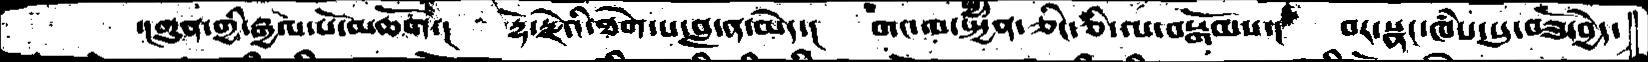་།གུན་གྱི་རྒྱལ་པོ་མཆོག་།  རྡོ་རྗེའི་ཐེག་པ་བླ་ན་མེད་།  གང་ལ་སྤྱན་ཅིང་ཅི་ལ་བསྒོམས་། བར་སྣང་ཁཾས་སུ་བཟོ་བྱེད་
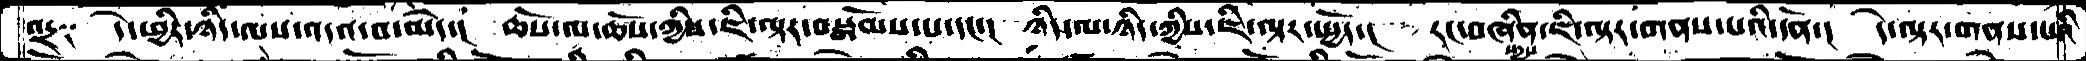འདྲ༑  དེ་ཕྱིར་ཉིད་ལས་འདའ་བ་མེད་།  ཆོས་ལ་ཆོས་ཀྱིས་ཇི་ལྟར་བསྒོམས་པ་དང་། ཉིད་ལ་ཉིད་ཀྱིས་ཇི་ལྟར་སྤྱོད་། རང་བཞིན་ཇི་ལྟར་གནས་པའི་དོན་། དེ་ལྟར་གནས་པའི་
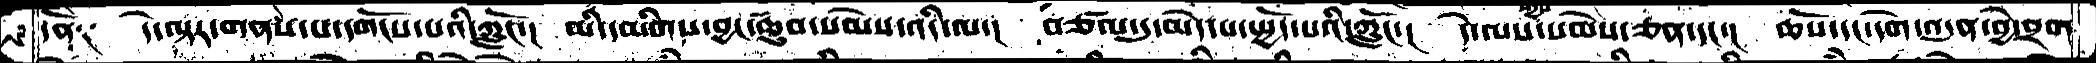དོན༑  དེ་ལྟར་གནས་པ་དགོངས་པའི་ཀློང་། མི་དམིགས་བྱང་ཆུབ་སེམས་འདི་ལ་། བཙལ་དུ་མེད་པ་སྤྱོད་པའི་ཀློང་། དེ་ལས་སདྱས་སེམས་ཅན་དང་།  ཆོས་དང་དགེ་འདུན་བྱེ་བྲག་
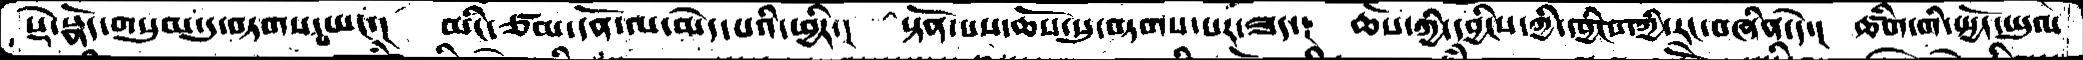སྡེ་སྣོད་གསུམ་དུ་བཏགས་པ་ཡང་།  མིང་ཙམ་དོན་ལ་མེད་པའི་ཕྱིར་། སྟོན་པས་ཆོས་སུ་བཏགས་པར་ཟད་། ཆོས་ཀྱི་དབྱིངས་ཀྱི་དབྱིངས་ཀྱི་རང་བཞིན་དེ་།  ཚིག་གི་སྤྱོད་ཡུལ
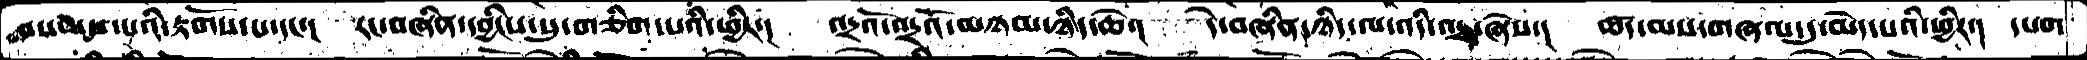བསམས་པའི་རྟོགས་པ་དང་། རང་བཞིན་དབྱིངས་སུ་གཅིག་པའི་ཕྱིར་། འདྲའོ་འདྲའོ་མཉམ་ཉིད་ཆེ་། དེ་བཞིན་ཉིད་ལ་འདི་འདྲ་ཞེས་། ཚད་མས་གཞལ་དུ་མེད་པའི་ཕྱིར་། དཔག
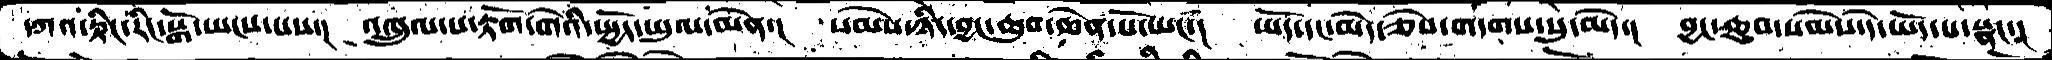དཀའ་རྟིང་རིང་སྒོ་ཡངས་པས་།  འཁྲུལ་པ་རྟོག་གེའི་སྤྱོད་ཡུལ་མེན་།  སེམས་ཉིད་བྱང་ཆུབ་ཆེན་པོ་ཡང་། ཡོད་དང་མེད་ཅེས་གདགས་སུ་མེད་།  བྱང་ཆུབ་སེམས་དེ་ཡོད་པ་སྣང་།
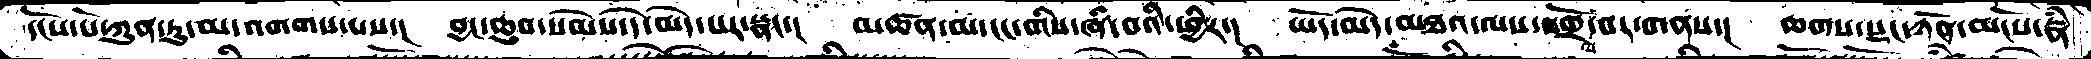དངོས་པོ་ཀུན་ཏུ་མ་འགགས་པས་།  བྱང་ཆུབ་སེམས་དེ་མེད་པར་སྣང་། མཚན་མ་ངང་གིས་ཞི་བའི་ཕྱིར་།  ཡོད་མེད་མཐའ་ལས་འགྲོལ་བར་གནས་།  ཆགས་སྡང་ཉོན་མོངས་རྣཾ
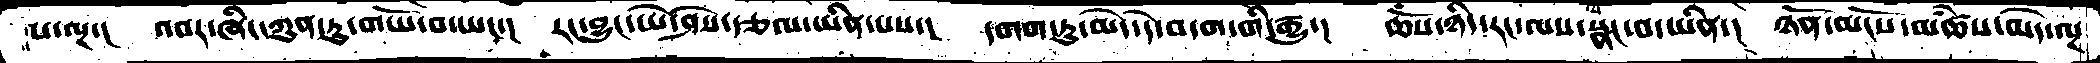པ་ལྔ་།  འབར་ཞིང་ཀུན་ཏུ་གཡོ་བ་ཡང་།  རང་བྱུང་ཡེ་ཤེས་རྩལ་ཡིན་པས་། དགག་ཏུ་མེད་དེ་བདག་གི་རྒྱུ་། ཆོས་ཉིད་རང་ལས་སྣང་བ་ཡིན་།  ཉོན་མོངས་མཚཾས་མེད་ལྔ
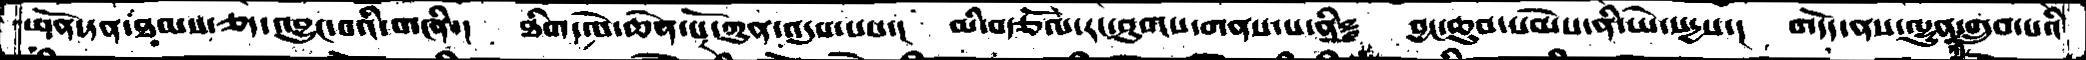ཡོན་ཏན་ཐམས་ཅད་འབྱུང་བའི་གཞི་།  ཐིག་ལེ་ཆེན་པོར་ཀུན་འདུས་པས་།  མི་བརྩོལ་རང་ཤུགས་གནས་པ་ནི༔  བྱང་ཆུབ་སེམས་ནི་ཡེ་སདྱས་།  གདོད་ནས་ལྷུན་ཀྱི་གྲུབ་པའི
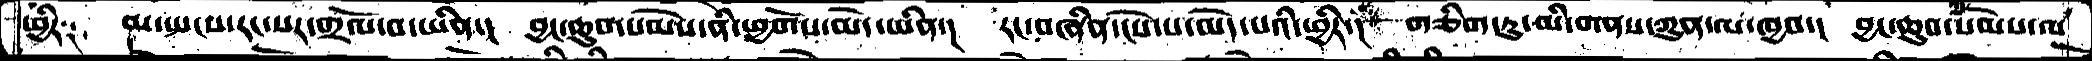ཕྱིར༑  མ་སྤངས་རང་སར་གྲོལ་བ་ཡིན་།  བྱང་ཆུབ་སེམས་ནི་ཕྱོགས་མེེད་ཡིན་།  རང་བཞིན་ངེས་པ་མེད་པའི་ཕྱིར་།  གཅིག་ཏུ་མི་གནས་ཀུན་ལ་ཁྱབ་།  བྱང་ཆུབ་སེམས་ལ
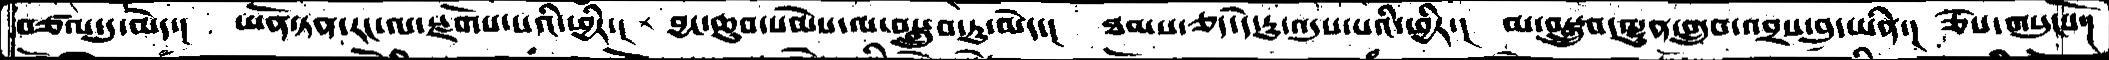བཙལ་དུ་མེད་།།  ཡོན་ཏན་རང་ལ་སྫོགས་པའི་ཕྱིར་།  བྱང་ཆུབ་སེམས་ལ་བསྒྲུབ་ཏུ་མེད་།  ཐམས་ཅད་དེ་རུ་འདུས་པའི་ཕྱིར་།  མ་བསྒྲུབ་ལྷུན་གྲུབ་འབྲས་བུ་ཡིན་།  ཅེས་གསུངསོ་།
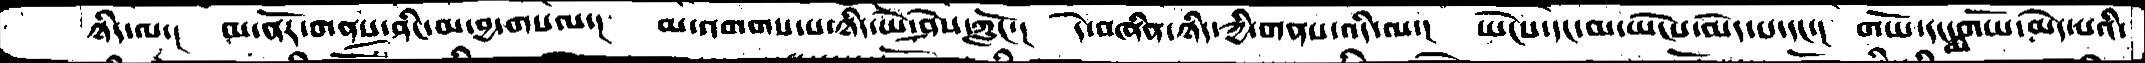ཉིད་ལ་།  མ་ནོར་གནས་ཤིང་མ་བྱ་གསལ་།  མ་འགགས་པ་ཉིད་ཡེ་ཤེས་ཀློང་།  དེ་བཞིན་ཉིད་ཀྱི་གནས་འདི་ལ་།  ཡེངས་དང་མ་ཡེངས་མེད་པ་དང་།  གཡོ་དང་མ་གཡོ་མེད་པའི་
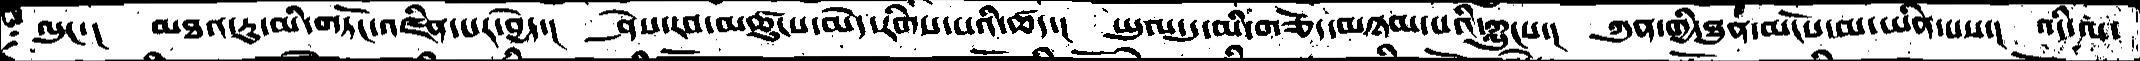ལུང་།  མཐའ་རུ་མི་གཏོང་འཛིན་པར་བྱེད་།  ཤེས་རབ་མཚུངས་མེད་རིགས་པའི་ཚད་།  ཡུལ་དུ་མི་གཅོད་མཉམ་པའི་ཀླུངས་།  ཀུན་གྱི་ཐུན་མོངས་མ་ཡིན་པས་།   འདི་ལ་
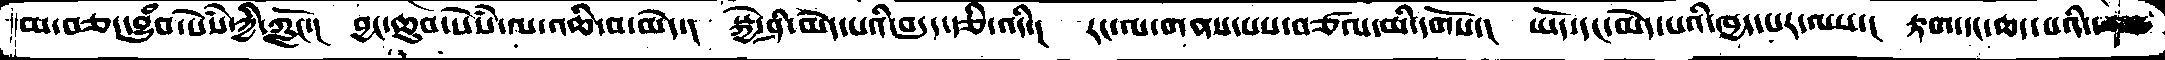མ་བཅད་བྱུྃབ་སེཾས་ཀྱི་ཀློང་།  བྱང་ཆུབ་སེཾས་ལ་འཆི་བ་མེད་།  སྐྱེ་ཤི་མེད་པའི་བདུད་རྩི་འདི་།  རང་ལ་གནས་པས་བཙལ་མི་དགོས་།  ཡོད་དང་མེད་པའི་ཁྱད་པར་ལས་།  རྟག་དང་ཆད་པའི་ཞེས་
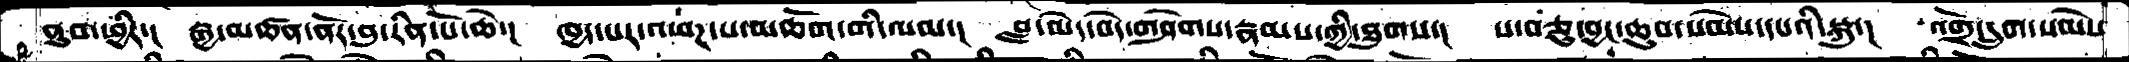ནུབ་ཕྱིར་།  རྒྱ་མཚན་ནོར་བུ་རིན་པོ་ཆེ་།  ཁྱད་པར་འཕཌ་པ་མཆོག་གི་ལམ་།  བླ་མེད་བདེ་གཤེགས་རྣམས་ཀྱི་ཐུགས་།  ས་བཅུ་བྱང་ཆུབ་སེམས་དཔའི་སྐུ་།  འགྲོ་དྲུག་སེམས་
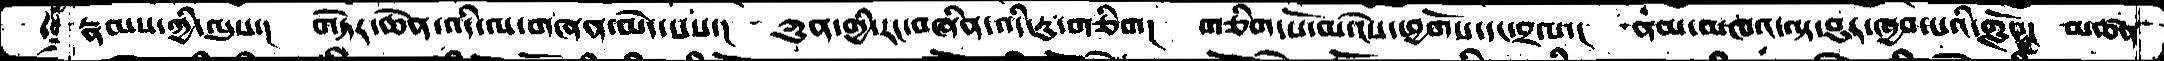རྣམས་ཀྱི་ལུས་།  གཏེར་ཆེན་འདི་ལ་གཞན་མེད་པས་།  ཀུན་གྱི་རང་བཞིན་འདི་རུ་གཅིག་།  གཅིག་པོ་མ་ངེས་ཕྱོགས་དང་བྲལ་། ནམ་མཁའ་ལྟ་བུར་ཁྱབ་པའི་གློ་། མཚན་
